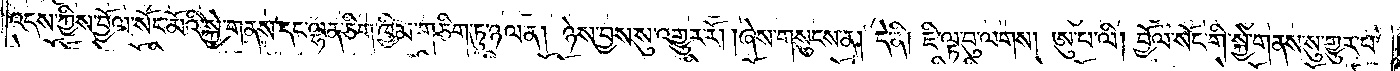འདས་ཀྱིས་བྱོལ་སོང་མོའི་སྐྱེ་གནས་དང་ལྷན་ཅིག་ཁྱིམ་གཅིག་ཏུ་ཉལ་ན། ཉེས་བྱས་སུ་འགྱུར་རོ། །ཞེས་གསུངས་ན། དེ་ནི། ཇི་ལྟ་བུ་ལགས། ཨུ་པ་ལི། བྱོལ་སོང་གི་སྐྱེ་གནས་སུ་གྱུར་པ་
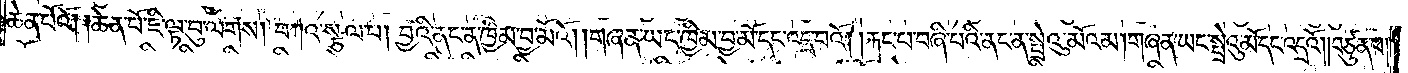ཆེན་པོའོ། །ཆེན་པོ་ཇི་ལྟ་བུ་ལགས། བཀའ་སྩལ་པ། བྱའི་ནང་ན་ཁྱིམ་བྱ་མོའོ། །གཞན་ཡང་ཁྱིམ་བྱ་མོ་དང་འདྲ་བའོ། །རྐང་པ་བཞི་པའི་ནང་ན་སྤྲེའུ་མོའམ། གཞན་ཡང་སྤྲེའུ་མོ་དང་འདྲའོ། །བཙུན་པ།
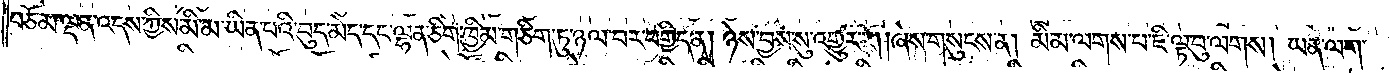བཅོམ་ལྡན་འདས་ཀྱིས་མི་མ་ཡིན་པའི་བུད་མེད་དང་ལྷན་ཅིག་ཁྱིམ་གཅིག་ཏུ་ཉལ་བར་བགྱིད་ན། ཉེས་བྱས་སུ་འགྱུར་རོ། །ཞེས་གསུངས་ན། མི་མ་ལགས་པ་ཇི་ལྟ་བུ་ལགས། ཡན་ལག་
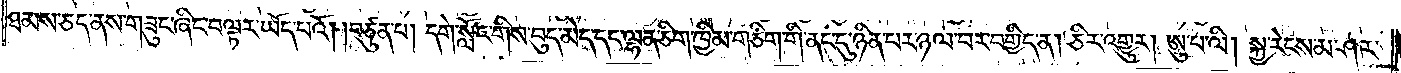ཐམས་ཅད་ནས་གཟུང་ཞིང་བལྟར་ཡོད་པའོ། །བཙུན་པ། དགེ་སློང་གིས་བུད་མེད་དང་ལྷན་ཅིག་ཁྱིམ་གཅིག་གི་ནང་དུ་ཉིན་པར་ཉལ་བར་བགྱིད་ན། ཅིར་འགྱུར། ཨུ་པ་ལི། སྐྱ་རེངས་མ་ཤར་
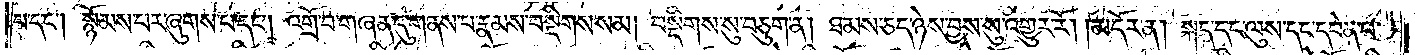པ་དང༌། སྙོམས་པར་ཞུགས་པ་དང༌། འགྲོ་བ་གཞན་དུ་གནས་པ་རྣམས་བསྡིགས་སམ། བསྡིགས་སུ་བཅུག་ན། ཐམས་ཅད་ཉེས་བྱས་སུ་འགྱུར་རོ། །མདོར་ན། སྐད་དང་ལུས་དང་དབེན་པ་
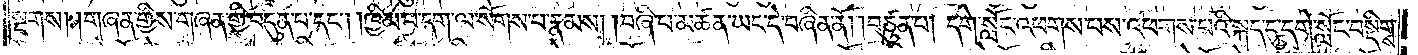སྔས། །གཞན་གྱིས་གཞན་གྱི་བདུན་པ་དང༌། །ཁྱིམ་པ་དག་ལ་སོགས་པ་རྣམས། །བཞི་པ་མཚན་ཡང་དེ་བཞིན་ནོ། །བཙུན་པ། དགེ་སློང་འཕགས་པས་འཕགས་པའི་སྐད་དུ་དགེ་སློང་བསྡིགས་
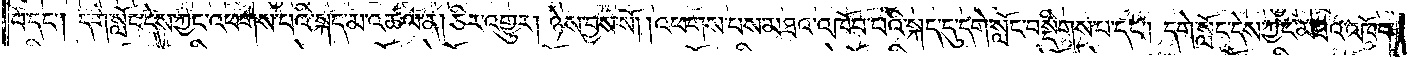པ་དང༌། དགེ་སློང་དེས་ཀྱང་འཕགས་པའི་སྐད་མ་འཚལ་ན། ཅིར་འགྱུར། ཉེས་བྱས་སོ། །འཕགས་པས་མཐའ་འཁོབ་པའི་སྐད་དུ་དགེ་སློང་བསྡིགས་པ་དང༌། དགེ་སློང་དེས་ཀྱང་མཐའ་འཁོབ་
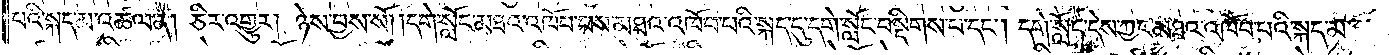པའི་སྐད་མ་འཚལ་ན། ཅིར་འགྱུར། ཉེས་བྱས་སོ། །དགེ་སློང་མཐའ་འཁོབ་པས་མཐའ་འཁོབ་པའི་སྐད་དུ་དགེ་སློང་བསྡིགས་པ་དང༌། དགེ་སློང་དེས་ཀྱང་མཐའ་འཁོབ་པའི་སྐད་མ་
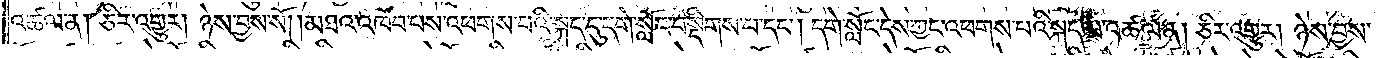འཚལ་ན། ཅིར་འགྱུར། ཉེས་བྱས་སོ། །མཐའ་འཁོབ་པས་འཕགས་པའི་སྐད་དུ་དགེ་སློང་བསྡིགས་པ་དང༌། དགེ་སློང་དེས་ཀྱང་འཕགས་པའི་སྐད་མ་འཚལ་ན། ཅིར་འགྱུར། ཉེས་བྱས་
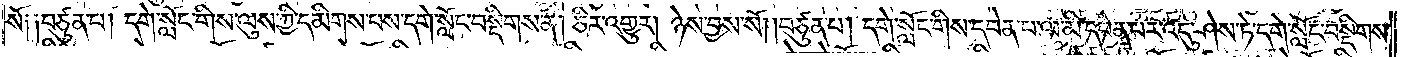སོ༑ ༑བཙུན་པ། དགེ་སློང་གིས་ལུས་ཀྱི་དམིགས་པས་དགེ་སློང་བསྡིགས་ན། ཅིར་འགྱུར། ཉེས་བྱས་སོ། །བཙུན་པ། དགེ་སློང་གིས་དབེན་པ་ལ་མི་དབེན་པར་འདུ་ཤེས་ཏེ་དགེ་སློང་བསྡིགས་
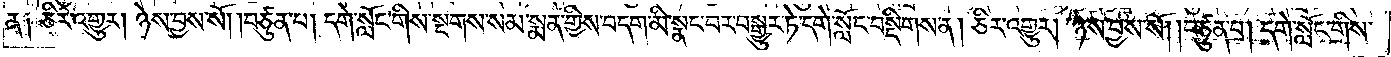ན༑ ཅིར་འགྱུར། ཉེས་བྱས་སོ། །བཙུན་པ། དགེ་སློང་གིས་སྔགས་སམ་སྨན་གྱིས་བདག་མི་སྣང་བར་བསྒྱུར་ཏེ་དགེ་སློང་བསྡིགས་ན། ཅིར་འགྱུར། ཉེས་བྱས་སོ། །བཙུན་པ། དགེ་སློང་གིས་
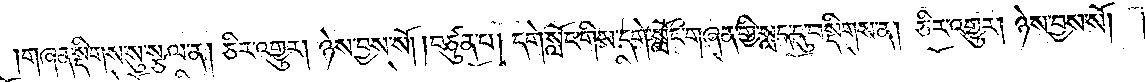གཞན་སྡིགས་སུ་སྩལ་ན། ཅིར་འགྱུར། ཉེས་བྱས་སོ། །བཙུན་པ། དགེ་སློང་གིས་དགེ་སློང་གཞན་གྱི་སླད་དུ་བསྡིགས་ན། ཅིར་འགྱུར། ཉེས་བྱས་སོ། །
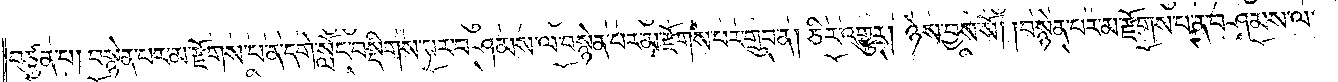བཙུན་པ། བསྙེན་པར་མ་རྫོགས་པ་ན་དགེ་སློང་བསྡིགས་པར་བཤམས་ལ་བསྙེན་པར་མ་རྫོགས་པར་གྲུབ་ན། ཅིར་འགྱུར། ཉེས་བྱས་སོ། །བསྙེན་པར་མ་རྫོགས་པ་ན་བཤམས་ལ་
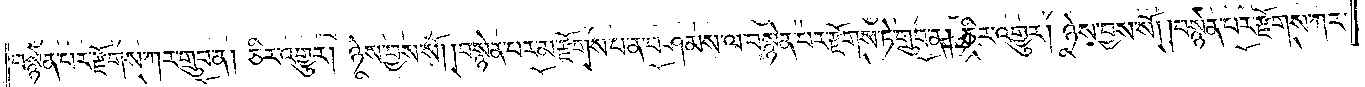བསྙེན་པར་རྫོགས་ཀར་གྲུབ་ན། ཅིར་འགྱུར། ཉེས་བྱས་སོ། །བསྙེན་པར་མ་རྫོགས་པ་ན་བཤམས་ལ་བསྙེན་པར་རྫོགས་ཏེ་གྲུབ་ན། ཅིར་འགྱུར། ཉེས་བྱས་སོ། །བསྙེན་པར་རྫོགས་ཀར་
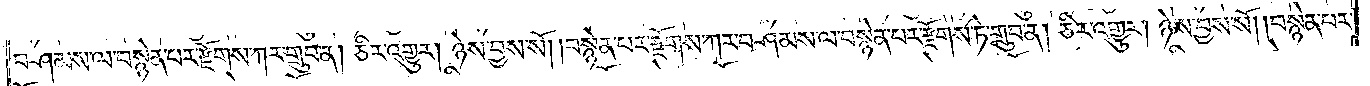བཤམས་ལ་བསྙེན་པར་རྫོགས་ཀར་གྲུབ་ན། ཅིར་འགྱུར། ཉེས་བྱས་སོ། །བསྙེན་པར་རྫོགས་ཀར་བཤམས་ལ་བསྙེན་པར་རྫོགས་ཏེ་གྲུབ་ན། ཅིར་འགྱུར། ཉེས་བྱས་སོ། །བསྙེན་པར་
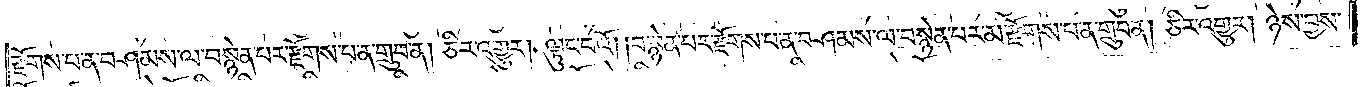རྫོགས་པ་ན་བཤམས་ལ་བསྙེན་པར་རྫོགས་པ་ན་གྲུབ་ན། ཅིར་འགྱུར། ལྟུང་བའོ། །བསྙེན་པར་རྫོགས་པ་ན་བཤམས་ལ་བསྙེན་པར་མ་རྫོགས་པ་ན་གྲུབ་ན། ཅིར་འགྱུར། ཉེས་བྱས་
